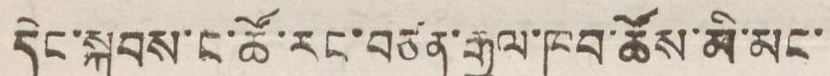དེང་སྐབས་ང་ཚོ་རང་བཙན་རྒྱལ་ཁབ་ཚོས་མི་མང་
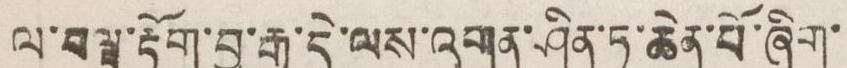ལ་བལྟ་རྟོག་བྱ་རྒྱུ་དེ་ལས་འགན་ཤིན་ཏུ་ཆེན་པོ་ཞིག་
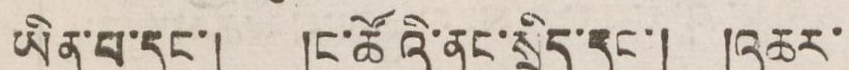ཡིན་པ་དང་། །ང་ཚོའི་ནང་སྲིད་དང་། །འཆར་
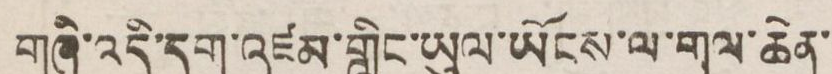གཞི་འདི་དག་འཛམ་གླིང་ཡུལ་སོངས་ལ་གལ་ཆེན་
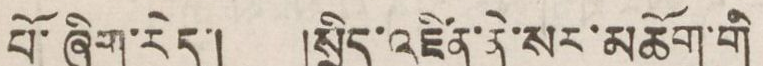པོ་ཞིག་རེད། །སྲིད་འཛིན་ནེ་སར་མཆོག་གི་
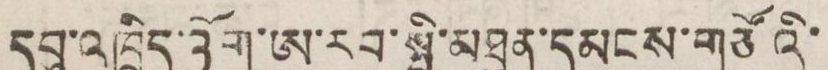དབུ་འཁྲིད་འོག་ཨ་རབ་སྤྱི་མཐུན་དམངས་གཙོའི་
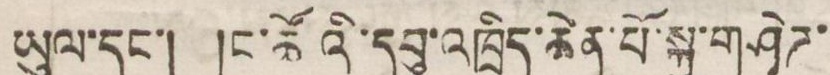ཡུལ་དང་། །ང་ཚོའི་དབུ་འཁྲིད་ཆེན་པོ་སྐུ་གཤེཊ་
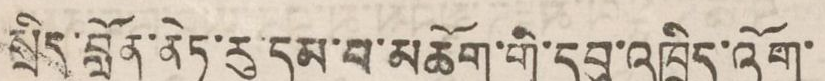སྲིད་བློན་ནེཏ་རུ་དམ་པ་མཆོག་གི་དབུ་འཁྲིད་འོག་
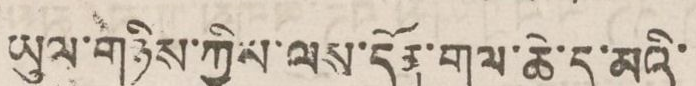ཡུལ་གཉིས་ཀྱིས་ལས་དོན་གལ་ཆེ་དུ་མའི་
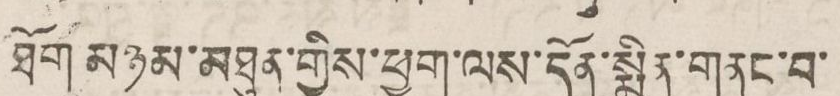ཐོག་མཉམ་མཐུན་གྱིས་ཕྱག་ལས་དོན་སྨིན་གནང་བ་
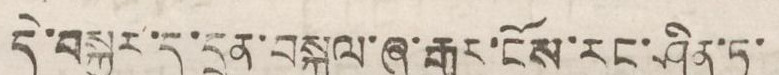དེ་བསྐྱར་དུ་དྲན་བསྐུལ་ཞུ་རྒྱུར་ངོས་རང་ཤིན་ཏུ་
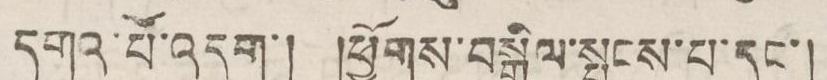དགའ་པོ་འདུག་། །ཕྱོགས་བསྒྲིལ་སྤངས་པ་དང་།
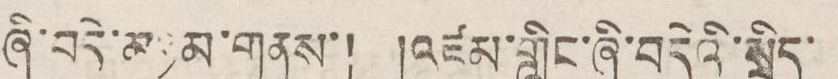ཞི་བདེ་མཉམ་གནས་། །འཛམ་གླིང་ཞི་བདེའི་སྲིད་
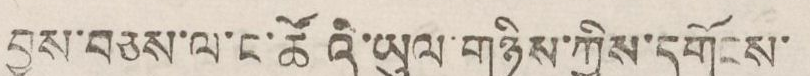བྱུས་བཅས་ལ་ང་ཚོའི་ཡུལ་གཉིས་ཀྱིས་དགོངས་
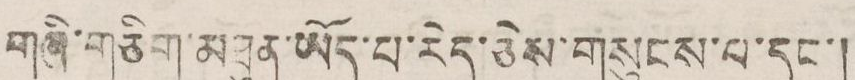གཞི་གཅིག་མཐུན་ཡོད་པ་རེད་ཅེས་གསུངས་པ་དང་།
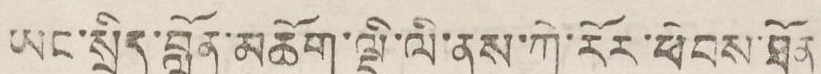ཡང་སྲིད་བློན་མཆོག་ལྡི་ལི་ནས་ཀེ་རོར་ཕེབས་ཐོན
